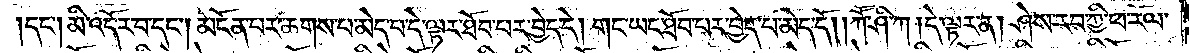དང༌། མི་འདོར་བ་དང༌། མངོན་པར་ཆགས་པ་མེད་པ་དེ་ལྟར་ཐོབ་པར་བྱེད་དེ། གང་ཡང་ཐོབ་པར་བྱེད་པ་མེད་དོ། །ཀཽ་ཤི་ཀ། དེ་ལྟར་ན། ཤེས་རབ་ཀྱི་ཕ་རོལ་
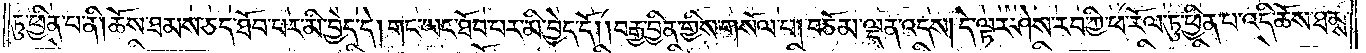ཏུ་ཕྱིན་པ་ནི། ཆོས་ཐམས་ཅད་ཐོབ་པར་མི་བྱེད་དེ། གང་ཡང་ཐོབ་པར་མི་བྱེད་དོ། །བརྒྱ་བྱིན་གྱིས་གསོལ་པ། བཅོམ་ལྡན་འདས། དེ་ལྟར་ཤེས་རབ་ཀྱི་ཕ་རོལ་ཏུ་ཕྱིན་པ་འདི་ཆོས་ཐམས་
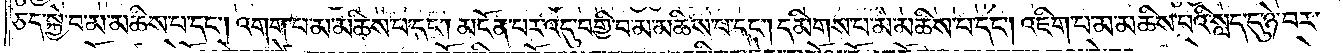ཅད་སྐྱེ་བ་མ་མཆིས་པ་དང༌། འགག་པ་མ་མཆིས་པ་དང༌། མངོན་པར་འདུ་བགྱི་བ་མ་མཆིས་པ་དང༌། དམིགས་པ་མ་མཆིས་པ་དང༌། འཇིག་པ་མ་མཆིས་པའི་སླད་དུ་ཉེ་བར་
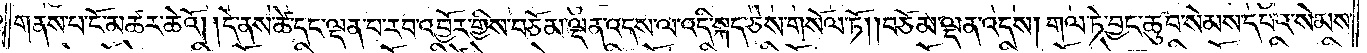གནས་པ་ངོ་མཚར་ཆེའོ། །དེ་ནས་ཚེ་དང་ལྡན་པ་རབ་འབྱོར་གྱིས་བཅོམ་ལྡན་འདས་ལ་འདི་སྐད་ཅེས་གསོལ་ཏོ། །བཅོམ་ལྡན་འདས། གལ་ཏེ་བྱང་ཆུབ་སེམས་དཔའ་སེམས་
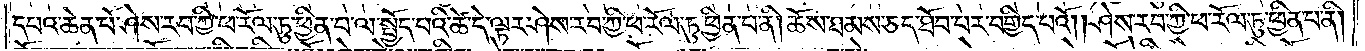དཔའ་ཆེན་པོ་ཤེས་རབ་ཀྱི་ཕ་རོལ་ཏུ་ཕྱིན་པ་ལ་སྤྱོད་པའི་ཚེ་དེ་ལྟར་ཤེས་རབ་ཀྱི་ཕ་རོལ་ཏུ་ཕྱིན་པ་ནི། ཆོས་ཐམས་ཅད་ཐོབ་པར་བགྱིད་པའོ། །ཤེས་རབ་ཀྱི་ཕ་རོལ་ཏུ་ཕྱིན་པ་ནི།
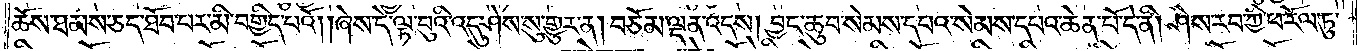ཆོས་ཐམས་ཅད་ཐོབ་པར་མི་བགྱིད་པའོ། །ཞེས་དེ་ལྟ་བུའི་འདུ་ཤེས་སུ་གྱུར་ན། བཅོམ་ལྡན་འདས། བྱང་ཆུབ་སེམས་དཔའ་སེམས་དཔའ་ཆེན་པོ་དེ་ནི། ཤེས་རབ་ཀྱི་ཕ་རོལ་ཏུ་
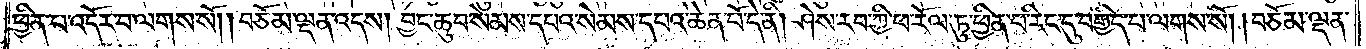ཕྱིན་པ་འདོར་བ་ལགས་སོ། །བཅོམ་ལྡན་འདས། བྱང་ཆུབ་སེམས་དཔའ་སེམས་དཔའ་ཆེན་པོ་དེ་ནི། ཤེས་རབ་ཀྱི་ཕ་རོལ་ཏུ་ཕྱིན་པ་རིང་དུ་བགྱིད་པ་ལགས་སོ། །བཅོམ་ལྡན་
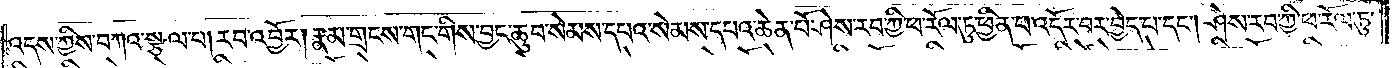འདས་ཀྱིས་བཀའ་སྩལ་པ། རབ་འབྱོར། རྣམ་གྲངས་གང་གིས་བྱང་ཆུབ་སེམས་དཔའ་སེམས་དཔའ་ཆེན་པོ་ཤེས་རབ་ཀྱི་ཕ་རོལ་ཏུ་ཕྱིན་པ་འདོར་བར་བྱེད་པ་དང༌། ཤེས་རབ་ཀྱི་ཕ་རོལ་ཏུ་
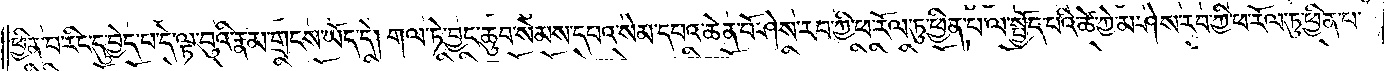ཕྱིན་པ་རིང་དུ་བྱེད་པ་དེ་ལྟ་བུའི་རྣམ་གྲངས་ཡོད་དེ། གལ་ཏེ་བྱང་ཆུབ་སེམས་དཔའ་སེམས་དཔའ་ཆེན་པོ་ཤེས་རབ་ཀྱི་ཕ་རོལ་ཏུ་ཕྱིན་པ་ལ་སྤྱོད་པའི་ཚེ་ཀྱེ་མ་ཤེས་རབ་ཀྱི་ཕ་རོལ་ཏུ་ཕྱིན་པ་
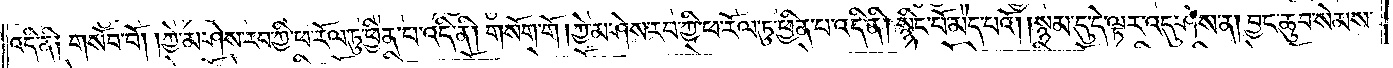འདི་ནི༑ གསོབ་བོ། །ཀྱེ་མ་ཤེས་རབ་ཀྱི་ཕ་རོལ་ཏུ་ཕྱིན་པ་འདི་ནི། གསོག་གོ། །ཀྱེ་མ་ཤེས་རབ་ཀྱི་ཕ་རོལ་ཏུ་ཕྱིན་པ་འདི་ནི། སྙིང་པོ་མེད་པའོ། །སྙམ་དུ་དེ་ལྟར་འདུ་ཤེས་ན། བྱང་ཆུབ་སེམས་
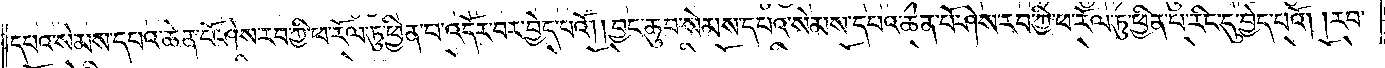དཔའ་སེམས་དཔའ་ཆེན་པོ་ཤེས་རབ་ཀྱི་ཕ་རོལ་ཏུ་ཕྱིན་པ་འདོར་བར་བྱེད་པའོ། །བྱང་ཆུབ་སེམས་དཔའ་སེམས་དཔའ་ཆེན་པོ་ཤེས་རབ་ཀྱི་ཕ་རོལ་ཏུ་ཕྱིན་པ་རིང་དུ་བྱེད་པའོ། །རབ་
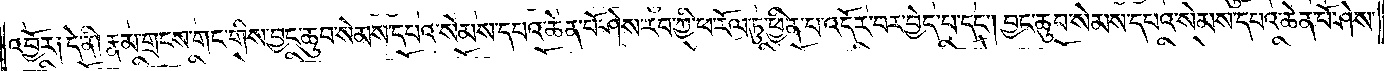འབྱོར༑ དེ་ནི། རྣམ་གྲངས་གང་གིས་བྱང་ཆུབ་སེམས་དཔའ་སེམས་དཔའ་ཆེན་པོ་ཤེས་རབ་ཀྱི་ཕ་རོལ་ཏུ་ཕྱིན་པ་འདོར་བར་བྱེད་པ་དང༌། བྱང་ཆུབ་སེམས་དཔའ་སེམས་དཔའ་ཆེན་པོ་ཤེས་
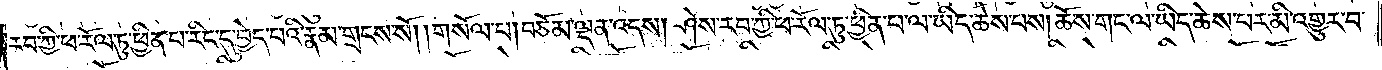རབ་ཀྱི་ཕ་རོལ་ཏུ་ཕྱིན་པ་རིང་དུ་བྱེད་པའི་རྣམ་གྲངས་སོ། །གསོལ་པ། བཅོམ་ལྡན་འདས། ཤེས་རབ་ཀྱི་ཕ་རོལ་ཏུ་ཕྱིན་པ་ལ་ཡིད་ཆེས་པས། ཆོས་གང་ལ་ཡིད་ཆེས་པར་མི་འགྱུར་བ་
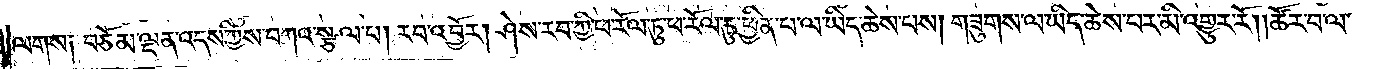ལགས༑ བཅོམ་ལྡན་འདས་ཀྱིས་བཀའ་སྩལ་པ། རབ་འབྱོར། ཤེས་རབ་ཀྱི་ཕ་རོལ་ཏུ་ཕྱིན་པ་ལ་ཡིད་ཆེས་པས། གཟུགས་ལ་ཡིད་ཆེས་པར་མི་འགྱུར་རོ། །ཚོར་བ་ལ་
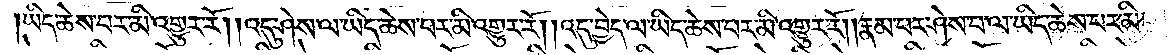ཡིད་ཆེས་པར་མི་འགྱུར་རོ། །འདུ་ཤེས་ལ་ཡིད་ཆེས་པར་མི་འགྱུར་རོ། །འདུ་བྱེད་ལ་ཡིད་ཆེས་པར་མི་འགྱུར་རོ། །རྣམ་པར་ཤེས་པ་ལ་ཡིད་ཆེས་པར་མི་
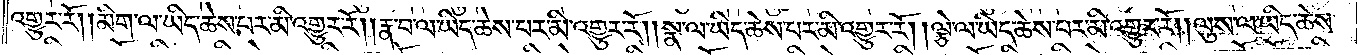འགྱུར་རོ། །མིག་ལ་ཡིད་ཆེས་པར་མི་འགྱུར་རོ། །རྣ་བ་ལ་ཡིད་ཆེས་པར་མི་འགྱུར་རོ། །སྣ་ལ་ཡིད་ཆེས་པར་མི་འགྱུར་རོ། །ལྕེ་ལ་ཡིད་ཆེས་པར་མི་འགྱུར་རོ། །ལུས་ལ་ཡིད་ཆེས་
